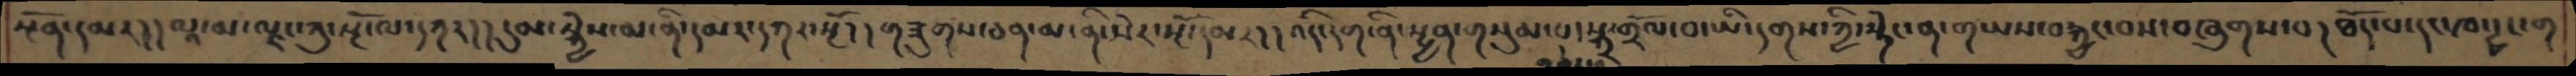སྔོན་དམར། །ལཱ་མ་ལྗང་ཀུ་སྔོ་ལ་དཀར། །དུམ་སྐྱེས་མ་ནི་དམར་དཀར་སྔོ། །གཟུགས་ཅན་མ་ནི་སེར་སྔོ་དམར། །འདི་དག་ནི་སྤྱན་གསུམ་པ་སྐྲ་གྲོལ་བ་ཡི་དགས་ཀྱི་སྟེང་ན་གཡས་བརྐྱང་བས་བཞུགས་པ། ཐོད་པ་དང་ཁ་ཏྭང་ག་
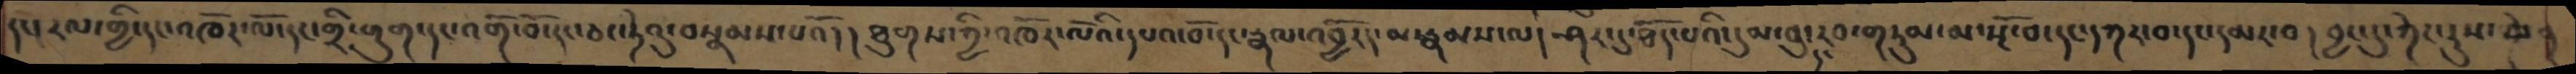དང་རལ་གྱི་དང་འཁོར་ལོ་དང་གྲི་གུག་དང་འགོ་བོ་དང་ཅང་ཏེའུ་བསྣམས་པའོ། །ཐུགས་ཀྱི་འཁོར་ལོའི་དཔའ་བོ་དང་རྣལ་འབྱོརད་མ་རྣམས་ལ། ཤར་དུ་ཐོད་པའི་དུམ་བུ་དང་རབ་གཏུམ་མ་སྔོ་བ་དང་དཀར་བ་དང་དམར་བ། བྱང་དུ་ཀེང་རུས་ཆེ་
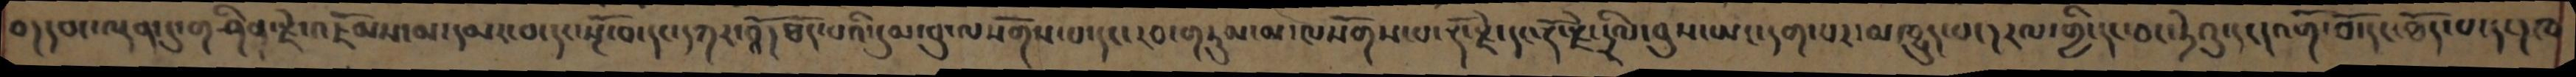བ། དབང་ལྡན་དུ་གཤིན་རྗེ་འཇོམས་མ་དམར་བ་དང་སྔོ་བ་དང་དཀར་བའོ། ཐོད་པའི་དུམ་བུ་ལསོགས་པ་དང་རབ་གཏུམ་མ་ལསོགས་པ་རྡོ་རྗེ་དང་རྡོ་རྗེ་དྲིལ་བུས་ཡང་དག་པར་མཁྱུད་པང། རལ་གྱི་དང་ཅང་ཏེའུ་དང། འགོ་བོ་དང་ཐོད་པ་དང། ཁ
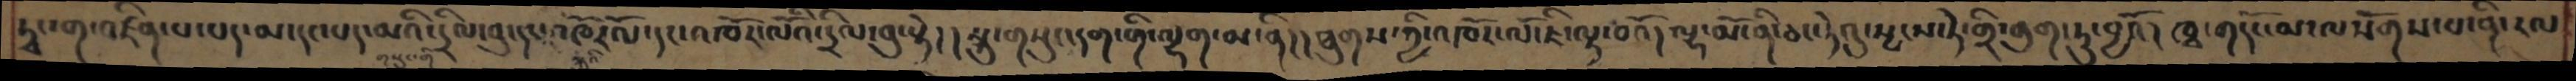ཏྭང་ག་འཛིན་པ་པད་མ་དང་པད་མའི་དྲིལ་བུ་དང་འཁོརལོ་དང་འཁོར་ལོའི་དྲིལ་བུ་སྟེ། །སྐུ་གསུང་དག་གི་ལྷག་མ་ནི། །ཐུགས་ཀྱི་འཁོར་ལོ་ཇི་ལྟ་བའོ། ལྷ་མོ་ནི་ཅང་ཏེའུ་སྤངས་ཏེ་གྲི་གུག་ཏུ་བྱའོ། ཁྭ་གདོང་མ་ལསོགས་པ་ནི་རལ
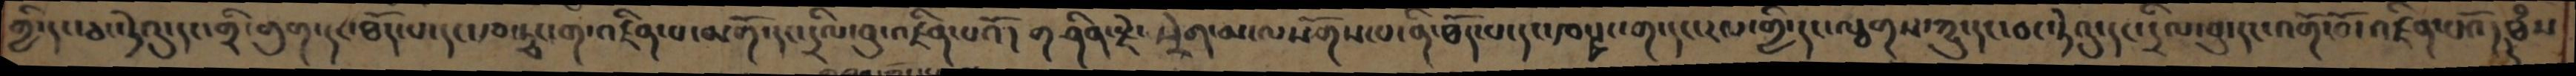ཀྱི་དང་ཅང་ཏེའུ་དང་གྲི་གུག་དང་ཐོད་པ་དང་ཁ་ཏྭང་ག་འཛིན་པ་མགོ་དང་དྲིལ་བུ་འཛིན་པའོ། གཤིན་རྗེ་ཕྲེག་མ་ལསོགས་པ་ནི་ཐོད་པ་དང་ཁ་ཏྭང་ག་དང་རལ་གྱི་དང་ལྕགས་ཀྱུ་དང་ཅང་ཏེའུ་དང་དྲིལ་བུ་དང་འགོ་བོ་འཛིན་པའོ། ཐཾས་
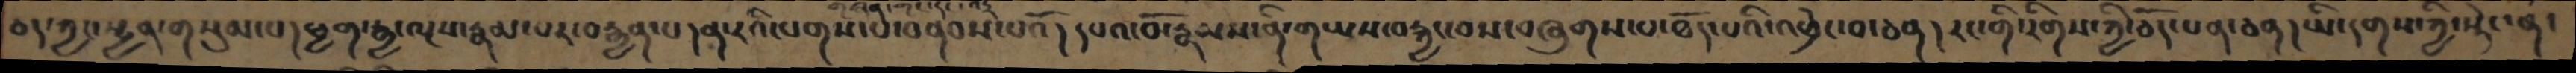ཅད་ཀྱང་སྤྱན་གསུམ་པ།ཕྱག་རྒྱ་ལྔས་རྣམ་པར་བརྒྱན་པ། ན་རའི་པགས་པ་བནབས་པའོ། དཔའ་བོ་རྣམས་ནི་གཡས་བརྐྱང་བས་བཞུགས་པ་ཐོད་པའི་འཕྲེང་བ་ཅན། རང་གི་རིགས་ཀྱི་ཅོད་པན་ཅན། ཡི་དགས་ཀྱི་སྟེང་ན་
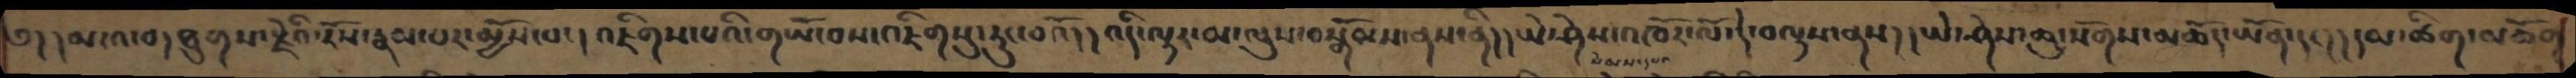༄། །མངའ་བ། ཐུགས་རྗེའི་རོས་རྣམ་པར་མྱོས་པ་། འཇིགས་པའི་གཡོ་བས་འཇིགསུ་རུང་བའོ། །འདི་ལྟར་མ་ལུས་བསྒོམས་ནས་ནི། །ཡེ་ཤེས་འཁོར་ལོ་དེ་བལྟས་ནས། །ཡེ་ཤེས་ཆུ་སོགས་མཆོད་ཡོན་དང། །དམ་ཚིག་མཆོག
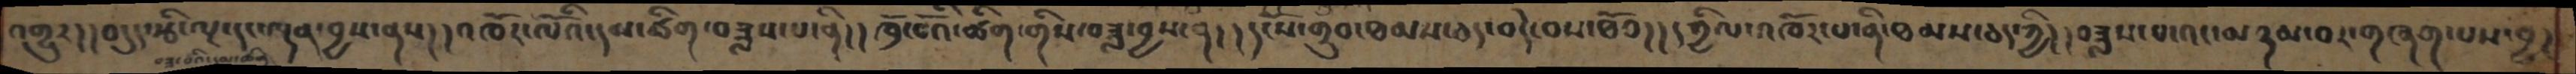འགྱུར། །བདུད་རྩི་ལྔ་དང་ལྡན་བྱས་ནས། །འཁོར་ལོའི་དམ་ཚིག་བཟླས་པ་ནི། །ཁྲོ་བོའི་ཚིག་གིས་བཟླ་བྱས་ན། །དངོས་གྲུབ་ཐམས་ཅད་བདེ་བས་ཐོབ། །དཀྱིལ་འཁོར་པ་ནི་ཐམས་ཅད་ཀྱི། །བཟླས་པ་འང་མཉམ་པར་གཞག་པས་བྱ།
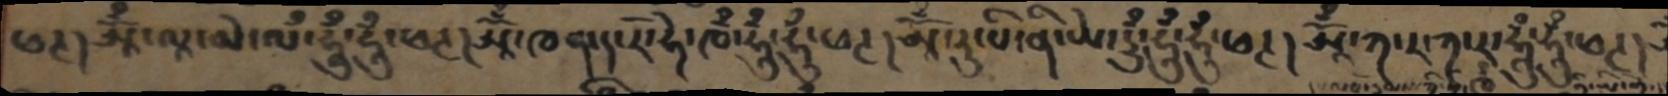ཕཊ། ཨཱོྃ་ལཱ་མེ་ལྃ་ཧཱུྃ་ཧཱུྃ་ཕཊ། ཨཱོྃ་ཁན་ད་རོ་ཧེ་ཁྃ་ཧཱུྃ་ཧཱུྃ་ཕཊ། ཨཱོྃ་རུ་པི་ནི་ཡེ་རུྃ་ཧཱུྃ་ཧཱུྃ་ཕཊ། ཨཱོྃ་ཀ་ར་ཀ་ར་ཧཱུྃ་ཧཱུྃ་ཕཊ།
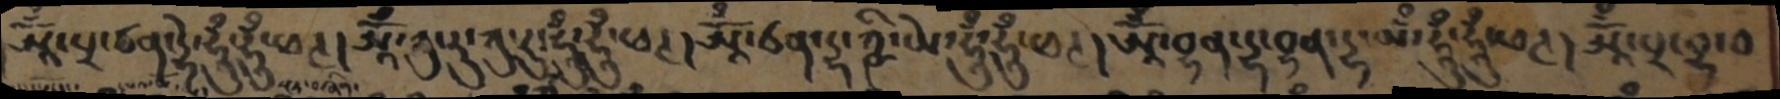ཨཱོྃ་པྲ་ཙན་དྷེ་ཧཱུྃ་ཧཱུྃ་ཕཊ། ཨཱོྃ་ཀུ་རུ་ཀུ་རུ་ཧཱུྃ་ཧཱུྃ་ཕཊ། ཨཱོྃ་ཙན་དྷ་ཀྵི་ཡེ་ཧཱུྃ་ཧཱུྃ་ཕཊ། ཨཱོྃ་བྷན་དྷ་བྷན་དྷ་མྃ་ཧཱུྃ་ཧཱུྃ་ཕཊ། ཨཱོྃ་པྲ་བྷ་བ
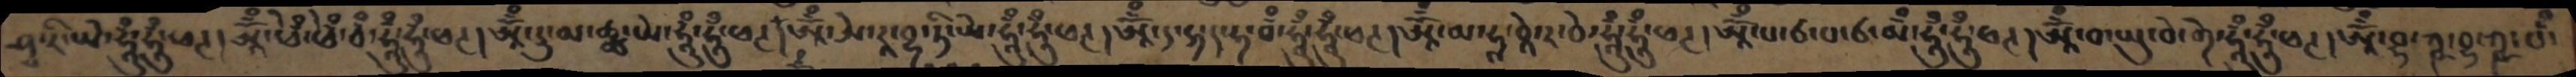ཤྭ་རི་ཡེ་ཧཱུྃ་ཧཱུྃ་ཕཊ། ཨཱོྃ་ཕེྃ་ཕེྃ་བྃ་ཧཱུྃ་ཧཱུྃ་ཕཊ། ཨཱོྃ་རུ་མ་ཚྪ་ཡེ་ཧཱུྃ་ཧཱུྃ་ཕཊ། ཨཱོྃ་ཨེ་ར་བྷ་ཏི་ཡེ་ཧཱུྃ་ཧཱུྃ་ཕཊ། ཨཱོྃ་ད་ཧ་ད་ཧ་བྃ་ཧཱུྃ་ཧཱུྃ་ཕཊ།ཨཱོྃ་མ་ཧཱ་བཱེ་ར་བེ་ཧཱུྃ་ཧཱུྃ་ཕཊ། ཨཱོྃ་པ་ཙ་པ་ཙ་མྃ་ཧཱུྃ་ཧཱུྃ་ཕཊ། ཨཱོྃ་བ་ཡུ་བེ་གེ་ཧཱུྃ་ཧཱུྃ་ཕཊ། ཨཱོྃ་བྷ་ཀྵ་བྷ་ཀྵ་བྃ་
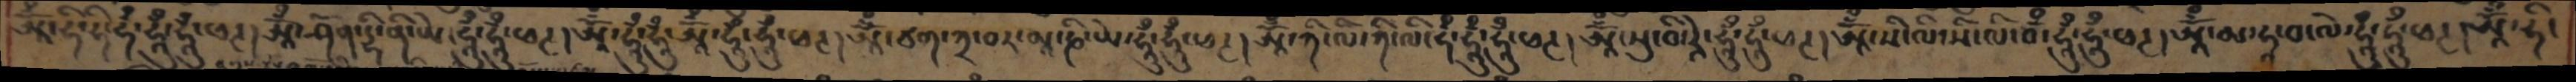ཨཱོྃ་ཧི་ཧི་ཧཾ་ཧཱུྃ་ཧཱུྃ་ཕཊ། ཨཱོྃ་ཤོན་དྷི་ནི་ཡེ་ཧཱུྃ་ཧཱུྃ་ཕཊ། ཨཱོྃ་ཧཱུྃ་ཧཱུྃ་ཨཱོྃ་ཧཱུྃ་ཧཱུྃ་ཕཊ། ཨཱོྃ་ཙག་ཀྲ་བར་མཱ་ཎི་ཡེ་ཧཱུཾ་ཧཱུཾ་ཕཊ། ཨཱོྃ་ཀི་ལི་ཀི་ལི་ཧྃ་ཧཱུྃ་ཧཱུྃ་ཕཊ། ཨཱོྃ་སུ་བི་རེ་ཧཱུྃ་ཧཱུྃ་ཕཊ། ཨཱོྃ་སི་ལི་སི་ལི་བྃ་ཧཱུྃ་ཧཱུྃ་ཕཊ། ཨཱོྃ་མ་ཧཱ་བ་ལེ་ཧཱུྃ་ཧཱུྃ་ཕཊ། ཨཱོྃ་ཧི་
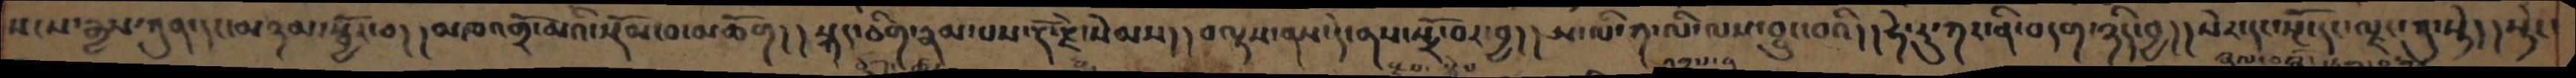སངས་རྒྱས་ཀུན་དང་མཉམ་སྦྱོར་བ།། མཁའགྲོ་མའི་སྡོམ་བ་མཆོག།། སྐད་ཅིག་རྣམ་པས་རྡོ་རྗེ་སེམས།། བལྟས་ནས་དེ་ནས་སྤྲོ་བར་བྱ།། ཨ་ལི་ཀ་ལི་ལས་བྱུང་བའི།། ཧེ་རུ་ཀར་ནི་བདག་ཉིད་བྱ།། སེར་དང་སྔོ་དང་ལྗང་ཀུ་སྟེ།། སྡེང་
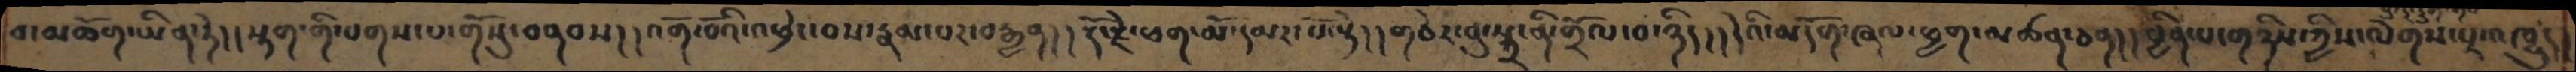བ་མཆོག་ཡིན་ཏེ།། སྟག་གི་པགས་པ་གོསུ་བནབས།། འགོ་བོའི་འཕྲེང་བས་རྣམ་པར་བརྒྱན།། རྡོ་རྗེ་ཕག་མོ་དམར་པོ་སྟེ།། གཅེར་བུ་སྐྲ་ནི་གྲོལ་བ་ཉིད།། དེའི་མདོག་ཞལ་ཕྱག་མཚན་ཅན།། བྱིན་པ་གཉིས་ཀྱིས་ལེགས་པར་འཁྱུད་
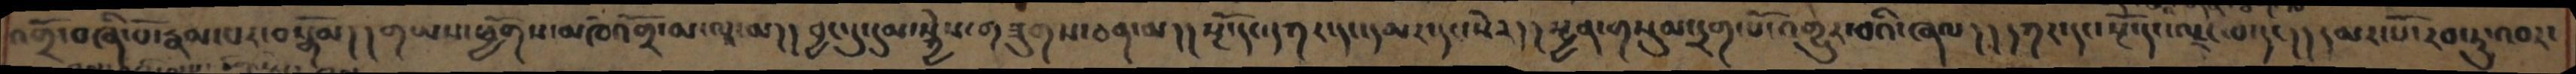འགྲོ་བཞི་པོ་རྣམ་པར་བསྒོམ།། གཡས་ཕྱོགས་མཁའགྲོ་མ་ལཱ་མ།།  བྱང་དུ་དུམ་སྐྱེས་གཟུགས་ཅན་མ།། སྔོ་དང་དཀར་དང་དམར་དང་སེར།། སྤྱན་གསུམ་དྲག་པོ་འགྱུར་བའི་ཞལ།། དཀར་དང་སྔོ་དང་ལྗང་བ་དང།། དམར་པོ་རབ་ཏུ་འབར་
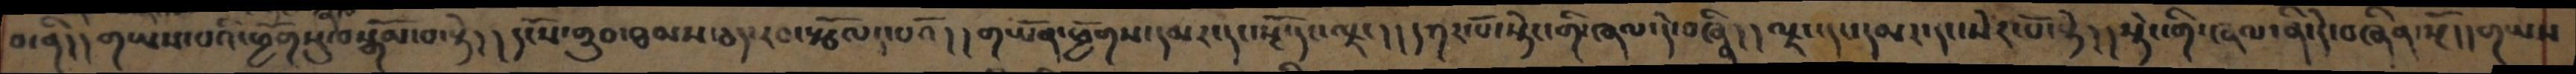བ་ནི།། གཡས་པའི་ཕྱོགསུ་བསྒོམ་པ་སྟེ།། དངོས་གྲུབ་ཐམས་ཅད་རབ་སྩོལད་བའོ།། གཡོན་ཕྱོགས་དམར་དང་སྔོ་དང་ལྗང།།དཀར་པོ་སྡེང་གི་ཞལ་དེ་བཞིན།། ལྗང་དང་དམར་དང་སེར་པོ་སྟེ།། སྡེང་གི་ཞལ་ནི་དེ་བཞིན་སྔོ།། གཡས
